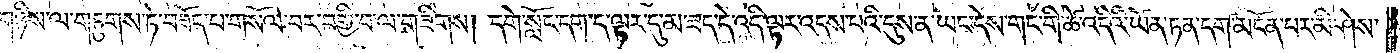གཉིས་ལ་གཏུགས་ཏེ་བཟོད་པ་གསོལ་བར་བགྱི་བ་ལ་གཟིགས། དགེ་སློང་དག་ད་ལྟར་དུ་མ་ཟད་དེ་འདི་ལྟར་འདས་པའི་དུས་ན་ཡང་དེས་གང་གི་ཚེ་འདིའི་ཡོན་ཏན་དག་མངོན་པར་མི་ཤེས་
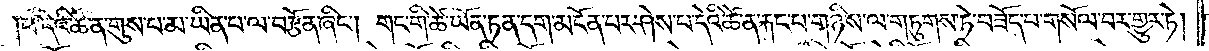པ་དེའི་ཚེ་ན་གུས་པ་མ་ཡིན་པ་ལ་བརྩོན་ཞིང༌། གང་གི་ཚེ་ཡོན་ཏན་དག་མངོན་པར་ཤེས་པ་དེའི་ཚེ་ན་རྐང་པ་གཉིས་ལ་གཏུགས་ཏེ་བཟོད་པ་གསོལ་བར་གྱུར་ཏེ།
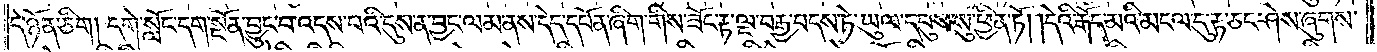དེ་ཉོན་ཅིག །དགེ་སློང་དག་སྔོན་བྱུང་བ་འདས་པའི་དུས་ན་བྱང་ལམ་ནས་དེད་དཔོན་ཞིག་གིས་ཟོང་རྟ་ལྔ་བརྒྱ་བདས་ཏེ་ཡུལ་དབུས་སུ་ཕྱིན་ཏོ། །དེའི་རྒོད་མའི་མངལ་དུ་རྟ་ཅང་ཤེས་ཞུགས་
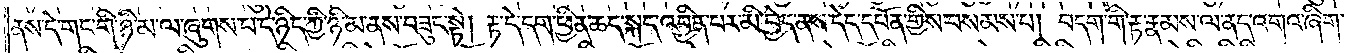ནས་དེ་གང་གི་ཉི་མ་ལ་ཞུགས་པ་དེ་ཉིད་ཀྱི་ཉི་མ་ནས་བཟུང་སྟེ། རྟ་དེ་དག་ཕྱིན་ཆད་སྐད་འབྱིན་པར་མི་བྱེད་ནས་དེད་དཔོན་གྱིས་བསམས་པ། བདག་གི་རྟ་རྣམས་ལ་ནད་འགའ་ཞིག་
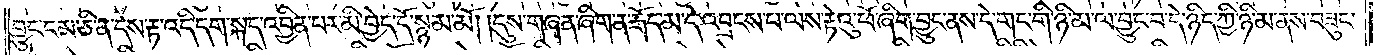བྱུང་ངམ་ཅི་ན་དེས་རྟ་འདི་དག་སྐད་འབྱིན་པར་མི་བྱེད་དོ་སྙམ་མོ། །དུས་གཞན་ཞིག་ན་རྒོད་མ་དེ་འབྲངས་པ་ལས་རྟེའུ་ཕོ་ཞིག་བྱུང་ནས་དེ་གང་གི་ཉི་མ་ལ་བྱུང་བ་དེ་ཉིད་ཀྱི་ཉི་མ་ནས་བཟུང་
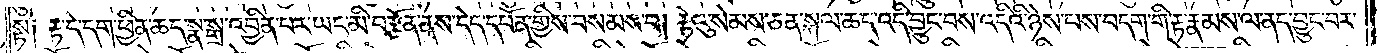སྟེ༑ རྟ་དེ་དག་ཕྱིན་ཆད་སྣ་སྒྲ་འབྱིན་པར་ཡང་མི་བརྩོན་ནས་དེད་དཔོན་གྱིས་བསམས་པ། རྟེའུ་སེམས་ཅན་སྐལ་ཆད་འདི་བྱུང་བས་འདིའི་ཉེས་པས་བདག་གི་རྟ་རྣམས་ལ་ནད་བྱུང་བར་
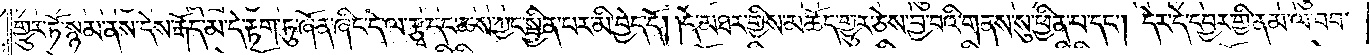གྱུར་ཏོ་སྙམ་ནས་དེས་རྒོད་མ་དེ་རྟག་ཏུ་ཞོན་ཞིང་དེ་ལ་རྩྭ་དང་ཆས་ཀྱང་སྦྱིན་པར་མི་བྱེད་དོ། །དེ་མཐར་གྱིས་མཆོད་གྱུར་ཅེས་བྱ་བའི་གནས་སུ་ཕྱིན་པ་དང༌། དེར་དེ་དབྱར་གྱི་ནམ་ལ་བབ་
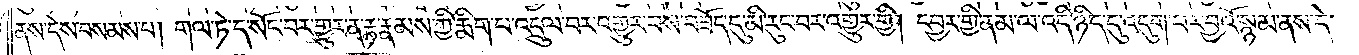ནས་དེས་བསམས་པ། གལ་ཏེ་ད་སོང་བར་གྱུར་ན་རྟ་རྣམས་ཀྱི་རྨིག་པ་འདྲུལ་བར་འགྱུར་བས་བཟོད་དུ་མི་རུང་བར་འགྱུར་གྱི། དབྱར་གྱི་ནམ་ལ་འདི་ཉིད་དུ་འདུག་པར་བྱའོ་སྙམ་ནས་དེ་
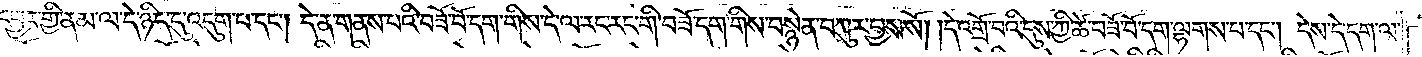དབྱར་གྱི་ནམ་ལ་དེ་ཉིད་དུ་འདུག་པ་དང༌། དེ་ན་གནས་པའི་བཟོ་བོ་དག་གིས་དེ་ལ་རང་རང་གི་བཟོ་དག་གིས་བསྙེན་བཀུར་བྱས་སོ། །དེ་འགྲོ་བའི་དུས་ཀྱི་ཚེ་བཟོ་བོ་དག་ལྷགས་པ་དང༌། དེས་དེ་དག་ལ་
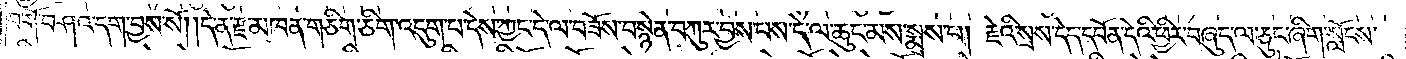བགོ་བཤའ་དག་བྱས་སོ། །དེ་ན་རྫ་མཁན་གཅིག་ཅིག་འདུག་པ་དེས་ཀྱང་དེ་ལ་བཟོས་བསྙེན་བཀུར་བྱས་པས་དེ་ལ་ཆུང་མས་སྨྲས་པ། རྗེའི་སྲས་དེད་དཔོན་དེའི་ཕྱིར་བཞུད་ལ་ཅུང་ཞིག་སློངས་
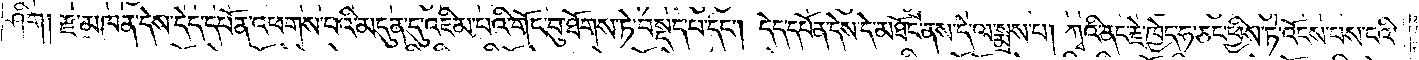ཤིག །རྫ་མཁན་དེས་དེད་དཔོན་འཕགས་པའི་མདུན་དུ་འཇིམ་པའི་གོང་བུ་ཐོགས་ཏེ་བསྡད་པ་དང༌། དེད་དཔོན་དེས་དེ་མཐོང་ནས་དེ་ལ་སྨྲས་པ། ཀྭའི་ནང་རྗེ་ཁྱེད་ཧ་ཅང་ཕྱིས་ཏེ་འོངས་པས་ངའི་
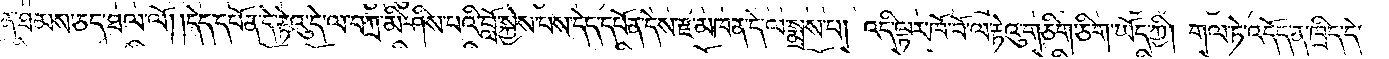ན་ཐམས་ཅད་ཐལ་ལོ། །དེད་དཔོན་དེ་རྟེའུ་དེ་ལ་བཀྲ་མི་ཤིས་པའི་བློ་སྐྱེས་པས་དེད་དཔོན་དེས་རྫ་མཁན་དེ་ལ་སྨྲས་པ། འདི་ལྟར་ཁོ་བོ་ལ་རྟེའུ་གཅིག་ཅིག་ཡོད་ཀྱི། གལ་ཏེ་འདོད་ན་ཁྲིད་དེ་
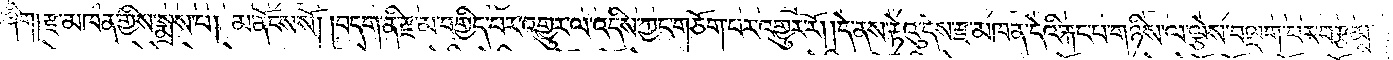ཞིག །རྫ་མཁན་གྱིས་སྨྲས་པ། མ་ནོངས་སོ། །བདག་ནི་རྫ་མ་བགྱིད་པར་འགྱུར་ལ་འདིས་ཀྱང་གཅོག་པར་འགྱུར་རོ། །དེ་ནས་རྟེའུ་དེས་རྫ་མཁན་དེའི་རྐང་པ་གཉིས་ལ་ལྕེས་བལྡག་པར་བརྩམས་
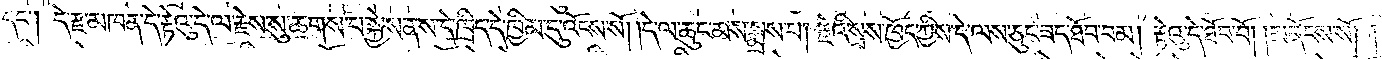དང༌། དེ་རྫ་མཁན་དེ་རྟེའུ་དེ་ལ་རྗེས་སུ་ཆགས་པ་སྐྱེས་ནས་དེ་ཁྲིད་དེ་ཁྱིམ་དུ་འོངས་སོ། །དེ་ལ་ཆུང་མས་སྨྲས་པ། རྗེའི་སྲས་ཁྱོད་ཀྱིས་དེ་ལས་ཅུང་ཟད་ཐོབ་བམ། རྟེའུ་དེ་ཐོབ་བོ། །མ་ནོངས་སོ། །
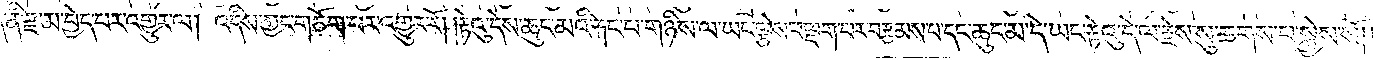ནི་རྫ་མ་བྱེད་པར་འགྱུར་ལ། འདིས་ཀྱང་གཅོག་པར་འགྱུར་རོ། །རྟེའུ་དེས་ཆུང་མའི་རྐང་པ་གཉིས་ལ་ཡང་ལྕེས་བལྡག་པར་བརྩམས་པ་དང་ཆུང་མ་དེ་ཡང་རྟེའུ་དེ་ལ་རྗེས་སུ་ཆགས་པ་སྐྱེས་སོ། །
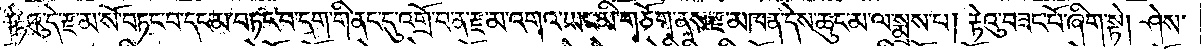རྟེའུ་དེ་རྫ་མ་སོ་བཏང་བ་དང་མ་བཏང་བ་དག་གི་ནང་དུ་འགྲོ་བ་ན་རྫ་མ་འགའ་ཡང་མི་གཅོག་ནས་རྫ་མཁན་དེས་ཆུང་མ་ལ་སྨྲས་པ། རྟེའུ་བཟང་པོ་ཞིག་སྟེ། ཤེས་
